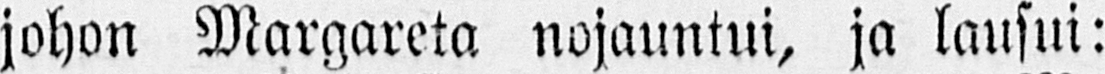johon Margareta nojauntui, ja lausui:
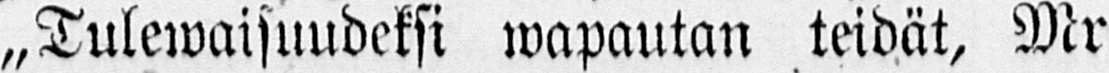„Tulewaisuudeksi wapautan teidät, Mr
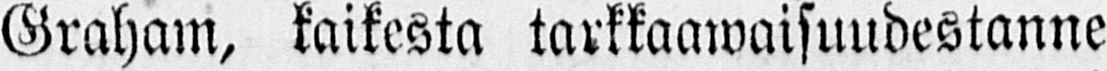Graham, kaikesta tarkkaawaisuudestanne
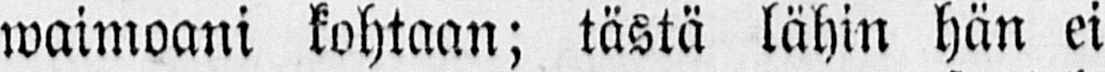waimoani kohtaan; tästä lähin hän ei
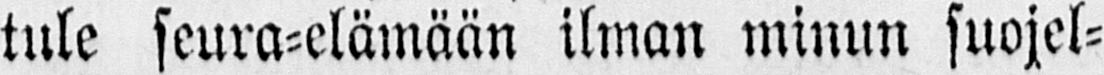tule seura-elämään ilman minun suojel-
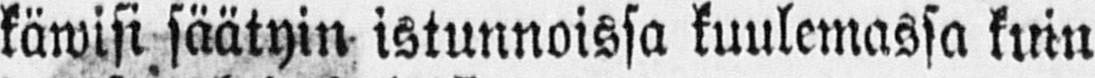käwisi, säätyin istunnoissa kuulemassa kirin
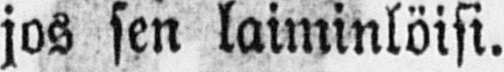jos sen laiminlöisi.
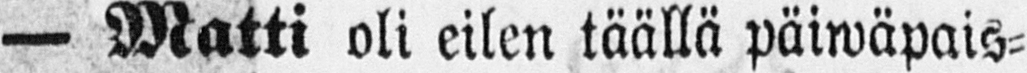— Matti oli eilen täällä päiwäpais-
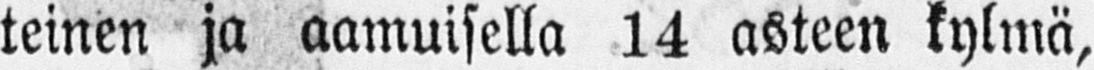teinen ja aamuisella 14 asteen kylmä,
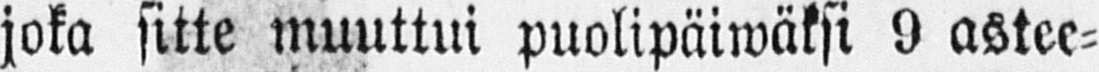joka sitte muuttui puoli päiwäksi 9 astee-
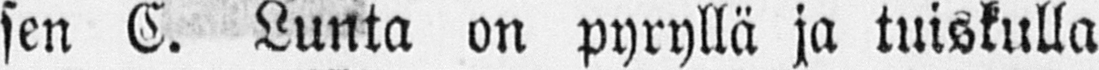sen C. Lunta on pyryllä ja tuiskulla
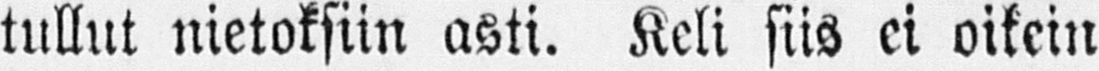tullut nietoksiin asti. Keli siis ei oikein
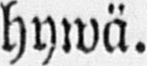hywä.
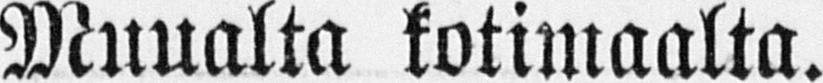Muualta kotimaalta.
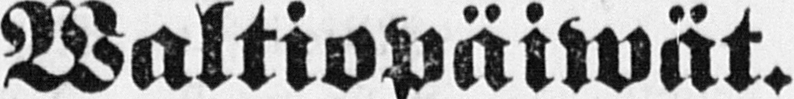Waltiopäiwät.
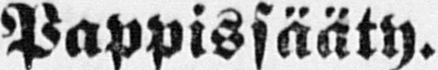Pappissääty.
